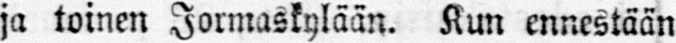ja toinen Jormaskylään. Kun ennestään
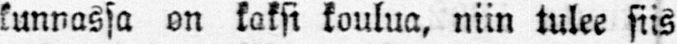kunnassa on kaksi koulua, niin tulee siis
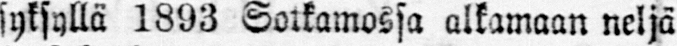syksyllä 1893 Sotkamossa alkamaan neljä
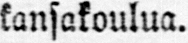kansakoulua.
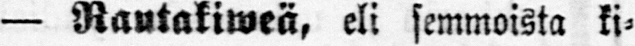— Rautakiweä, eli semmoista ki-
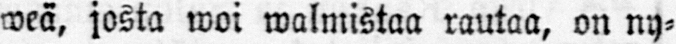weä, josta woi walmistaa rautaa, on ny-
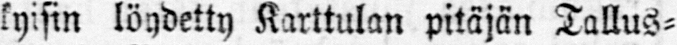kyisin löydetty Karttulan pitäjän Tallus-
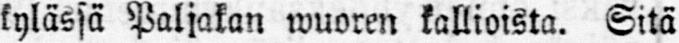kylässä Paljakan wuoren kallioista. Sitä
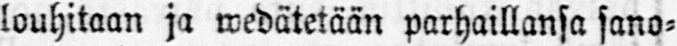louhitaan ja wedätetään parhaillansa sano-
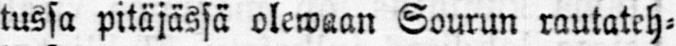tussa pitäjässä olewaan Sourun rautateh-
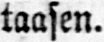taasen.
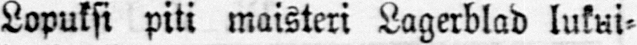Lopuksi piti maisteri Lagerblad lukui-
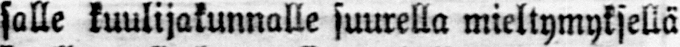salle kuulijakunnalle suurella mieltymyksellä
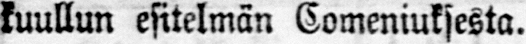kuullun esitelmän Comeniuksesta.
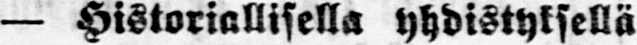— Historiallisella yhdistyksellä
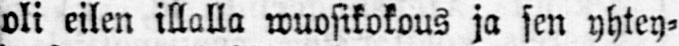oli eilen illalla wuosikokous ja sen yhtey-
